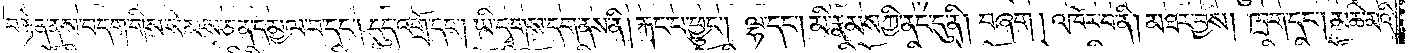བརྟེན་ནས་བདག་གིས་སེམས་ཅན་དམྱལ་བ་དང༌། དུད་འགྲོ་དང༌། ཡི་དྭགས་དག་ནས་ནི། རྐང་པ་ཕྱུང༌། ལྷ་དང༌། མི་རྣམས་ཀྱི་ནང་དུ་ནི། བཞག །འཁོར་བ་ནི། མཐར་བྱས། ཁྲག་དང༌། མཆི་མའི་
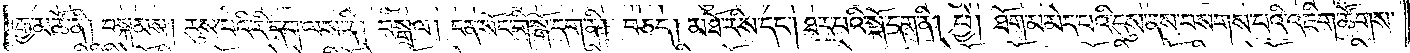རྒྱ་མཚོ་ནི། བསྐམས། རུས་པའི་རི་དག་ལས་ནི། བསྒྲལ། ངན་སོང་གི་སྒོ་དག་ནི། བཅད། མཐོ་རིས་དང༌། ཐར་པའི་སྒོ་དག་ནི། ཕྱེ། ཐོག་མ་མེད་པའི་དུས་ནས་བསགས་པའི་འཇིག་ཚོགས་
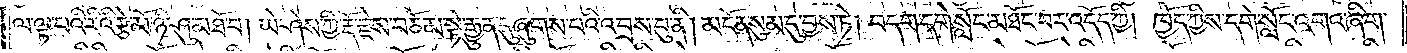ལ་ལྟ་བའི་རིའི་རྩེ་མོ་ཉི་ཤུ་མཐོ་བ། ཡེ་ཤེས་ཀྱི་རྡོ་རྗེས་བཅོམ་སྟེ་རྒྱུན་དུ་ཞུགས་པའི་འབྲས་བུ་ནི། མངོན་སུམ་དུ་བྱས་ཏེ། བདག་དགེ་སློང་མཐོང་བར་འདོད་ཀྱི། ཁྱོད་ཀྱིས་དགེ་སློང་འགའ་ཞིག་
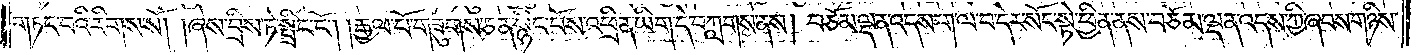གཏང་བའི་རིགས་སོ། །ཞེས་བྲིས་ཏེ་སྤྲིང་ངོ༌། །རྒྱལ་པོ་གཟུགས་ཅན་སྙིང་པོས་འཕྲིན་ཡིག་དེ་བཀླགས་ནས། བཅོམ་ལྡན་འདས་ག་ལ་བ་དེར་སོང་སྟེ་ཕྱིན་ནས་བཅོམ་ལྡན་འདས་ཀྱི་ཞབས་གཉིས་
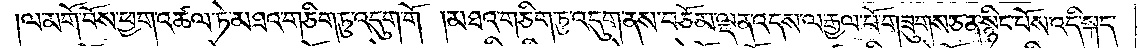ལ་མགོ་བོས་ཕྱག་འཚལ་ཏེ་མཐའ་གཅིག་ཏུ་འདུག་གོ །མཐའ་གཅིག་ཏུ་འདུག་ནས་བཅོམ་ལྡན་འདས་ལ་རྒྱལ་པོ་གཟུགས་ཅན་སྙིང་པོས་འདི་སྐད་
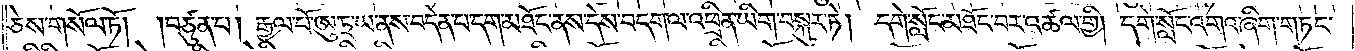ཅེས་གསོལ་ཏོ། །བཙུན་པ། རྒྱལ་པོ་ཨུ་ཏྲ་ཡ་ནས་བདེན་པ་དག་མཐོང་ནས་དེས་བདག་ལ་འཕྲིན་ཡིག་བསྐུར་ཏེ། དགེ་སློང་མཐོང་བར་འཚལ་གྱི། དགེ་སློང་འགའ་ཞིག་གཏང་
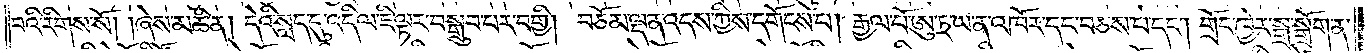བའི་རིགས་སོ། །ཞེས་མཆི་ན། དེའི་སླད་དུ་འདི་ལ་ཇི་ལྟར་བསྒྲུབ་པར་བགྱི། བཅོམ་ལྡན་འདས་ཀྱིས་དགོངས་པ། རྒྱལ་པོ་ཨུ་ཏྲ་ཡ་ན་འཁོར་དང་བཅས་པ་དང༌། གྲོང་ཁྱེར་སྒྲ་སྒྲོག་ན་
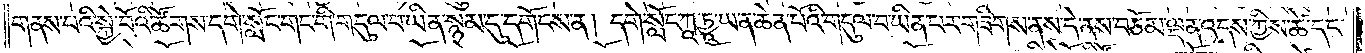གནས་པའི་སྐྱེ་བོའི་ཚོགས་དགེ་སློང་གང་གི་གདུལ་བ་ཡིན་སྙམ་དུ་དགོངས་ན། དགེ་སློང་ཀཱ་ཏྱཱ་ཡ་ན་ཆེན་པོའི་གདུལ་བ་ཡིན་པར་གཟིགས་ནས་དེ་ནས་བཅོམ་ལྡན་འདས་ཀྱིས་ཚེ་དང་
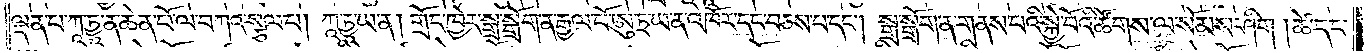ལྡན་པ་ཀཱ་ཏྱཱ་ན་ཆེན་པོ་ལ་བཀའ་སྩལ་པ། ཀཱ་ཏྱཱ་ཡ་ན། གྲོང་ཁྱེར་སྒྲ་སྒྲོག་ན་རྒྱལ་པོ་ཨུ་ཏྲ་ཡ་ན་འཁོར་དང་བཅས་པ་དང༌། སྒྲ་སྒྲོག་ན་གནས་པའི་སྐྱེ་བོའི་ཚོགས་ལ་སེམས་ཤིག །ཚེ་དང་
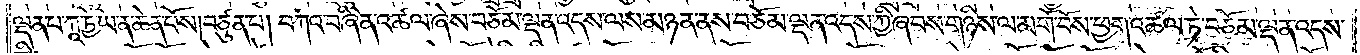ལྡན་པ་ཀཱ་ཏྱཱ་ཡ་ན་ཆེན་པོས། བཙུན་པ། བཀའ་བཞིན་འཚལ་ཞེས་བཅོམ་ལྡན་འདས་ལས་མཉན་ནས་བཅོམ་ལྡན་འདས་ཀྱི་ཞབས་གཉིས་ལ་མགོ་བོས་ཕྱག་འཚལ་ཏེ་བཅོམ་ལྡན་འདས་
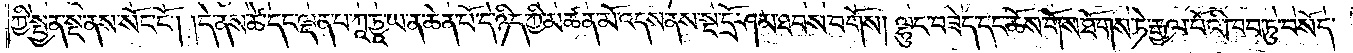ཀྱི་སྤྱན་སྔ་ནས་སོང་ངོ༌། །དེ་ནས་ཚེ་དང་ལྡན་པ་ཀཱཏྱཱ་ཡ་ན་ཆེན་པོ་དེ་ཉིད་ཀྱི་མཚན་མོ་འདས་ནས་སྔ་དྲོ་ཤམ་ཐབས་བགོས། ལྷུང་བཟེད་དང་ཆོས་གོས་ཐོགས་ཏེ་རྒྱལ་པོའི་ཁབ་ཏུ་བསོད་
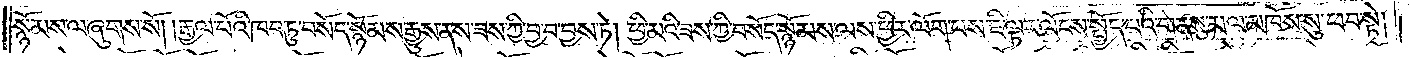སྙོམས་ལ་ཞུགས་སོ། །རྒྱལ་པོའི་ཁབ་ཏུ་བསོད་སྙོམས་རྒྱུས་ནས་ཟས་ཀྱི་བྱ་བ་བྱས་ཏེ། ཕྱི་མའི་ཟས་ཀྱི་བསོད་སྙོམས་ལས་ཕྱིར་ལོག་པས་ཇི་ལྟར་ལོངས་སྤྱོད་པའི་གནས་མལ་མཁོས་སུ་ཕབ་སྟེ།
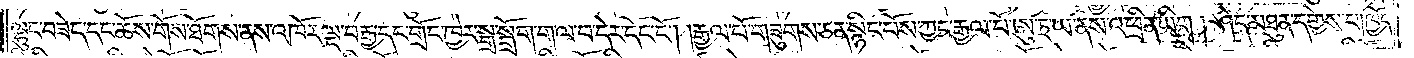ལྷུང་བཟེད་དང་ཆོས་གོས་ཐོགས་ནས་འཁོར་ལྔ་བརྒྱ་དང་གྲོང་ཁྱེར་སྒྲ་སྒྲོག་ག་ལ་བ་དེར་དོང་ངོ༌། །རྒྱལ་པོ་གཟུགས་ཅན་སྙིང་པོས་ཀྱང་རྒྱལ་པོ་ཨུ་ཏྲ་ཡ་ནས་འཕྲིན་ཡིག །ཤེད་མཐུན་དགྱེས་པ།ཁྱོད་
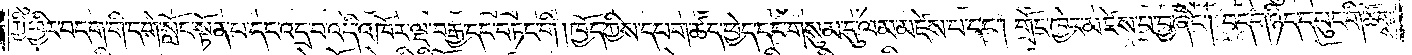ཀྱི་ཕྱིར་བདག་གི་དགེ་སློང་སྟོན་པ་དང་འདྲ་བ་འདི་འཁོར་ལྔ་བརྒྱ་དང་བཏང་གི །ཁྱོད་ཀྱིས་དཔག་ཚད་ཕྱེད་དང་གསུམ་དུ་ལམ་མཛེས་པ་དང༌། གྲོང་ཁྱེར་མཛེས་པ་བྱ་ཞིང༌། བདག་ཉིད་དཔུང་གི་ཚོགས་
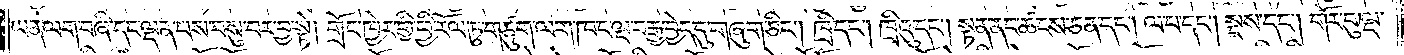ཡན་ལག་བཞི་དང་ལྡན་པས་བསུ་བར་བྱ་སྟེ། གྲོང་ཁྱེར་གྱི་ཕྱི་རོལ་ཏུ་གཙུག་ལག་ཁང་ལྔ་བརྒྱ་བྱེད་དུ་གཞུག་ཅིང༌། ཁྲི་དང༌། ཁྲིའུ་དང༌། སྟན་ནང་ཚངས་ཅན་དང༌། ལ་བ་དང༌། སྔས་དང༌། གོར་བུ་ལྔ་
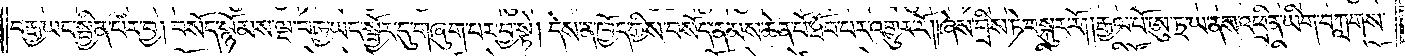བརྒྱ་ཡང་སྦྱིན་པར་བྱ། བསོད་སྙོམས་ལྔ་བརྒྱ་ཡང་སྦྱོར་དུ་གཞུག་བར་བྱ་སྟེ། དེས་ན་ཁྱོད་ཀྱིས་བསོད་ནམས་ཆེན་པོ་ཐོབ་པར་འགྱུར་རོ། །ཞེས་བྲིས་ཏེ་བསྐུར་རོ། །རྒྱལ་པོ་ཨུ་ཏྲ་ཡ་ནས་འཕྲིན་ཡིག་བཀླགས་
